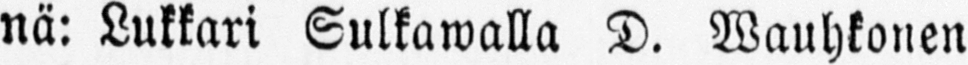nä: Lukkari Sulkawalla D. Wauhkonen
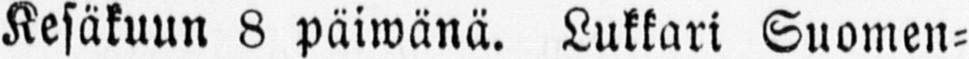Kesäkuun 8 päiwänä. Lukkari Suomen-
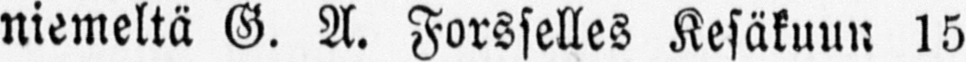niemeltä G. A. Forsselles Kesäkuun 15
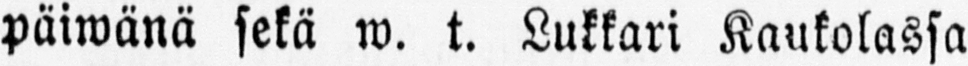päiwänä sekä w. t. Lukkari Kaukolassa
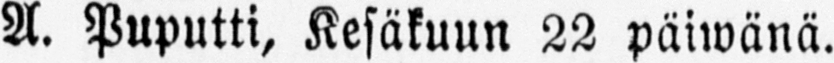A. Puputti, Kesäkuun 22 päiwänä.
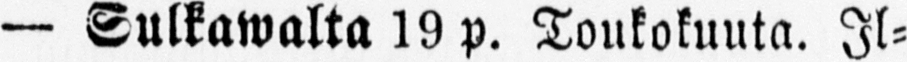— Sulkawalta 19 p. Toukokuuta. Il-
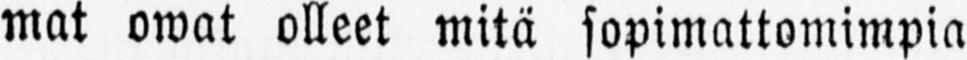mat owat olleet mitä sopimattomimpia
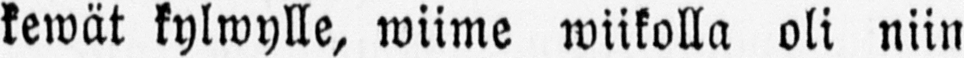kewät kylwylle, wiime wiikolla oli niin
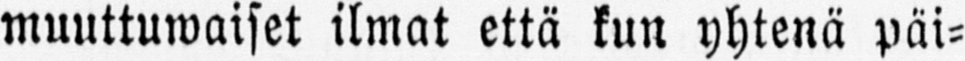muuttuwaiset ilmat että kun yhtenä päi-
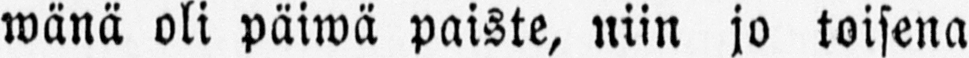wänä oli päiwä paiste, niin jo toisena
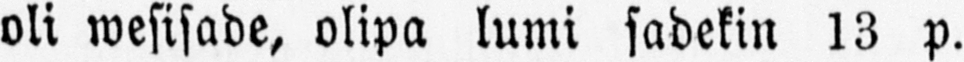oli wesisade, olipa lumi sadekin 13 p.
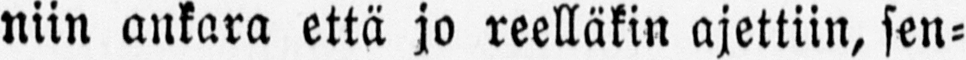niin ankara että jo reelläkin ajettiin, sen-
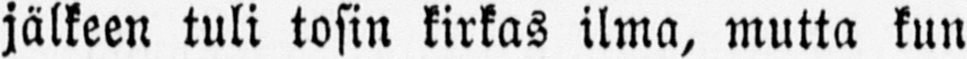jälkeen tuli tosin kirkas ilma, mutta kun
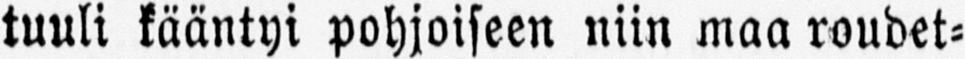tuuli kääntyi pohjoiseen niin maa roudet-
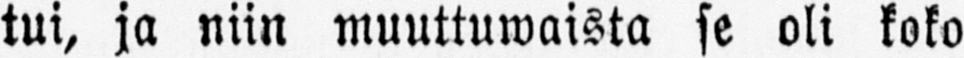tui, ja niin muuttuwaista se oli koko
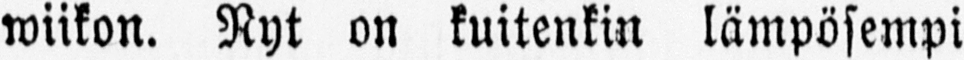wiikon. Nyt on kuitenkin lämpösempi
